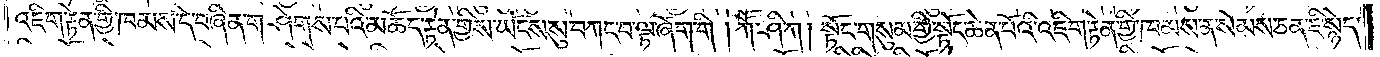འཇིག་རྟེན་གྱི་ཁམས་དེ་བཞིན་གཤེགས་པའི་མཆོད་རྟེན་གྱིས་ཡོངས་སུ་བཀང་བ་ལྟ་ཞོག་གི། ཀཽ་ཤི་ཀ། སྟོང་གསུམ་གྱི་སྟོང་ཆེན་པོའི་འཇིག་རྟེན་གྱི་ཁམས་ན་སེམས་ཅན་ཇི་སྙེད་
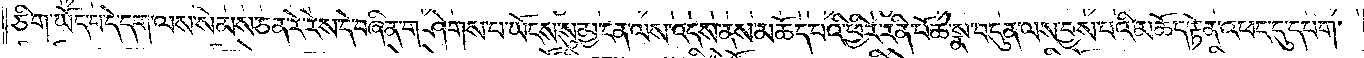ཅིག་ཡོད་པ་དེ་དག་ལས་སེམས་ཅན་རེ་རེས་དེ་བཞིན་གཤེགས་པ་ཡོངས་སུ་མྱ་ངན་ལས་འདས་ནས་མཆོད་པའི་ཕྱིར་རིན་པོ་ཆེ་སྣ་བདུན་ལས་བྱས་པའི་མཆོད་རྟེན་འཕང་དུ་དཔག་
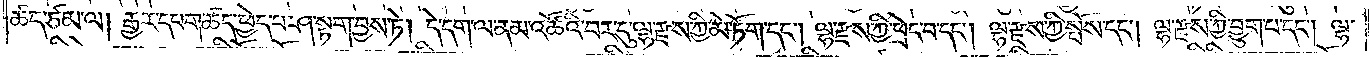ཚད་ཙམ་ལ། རྒྱར་དཔག་ཚད་ཕྱེད་པ་ཤ་སྟག་བྱས་ཏེ། དེ་དག་ལ་ནམ་འཚོའི་བར་དུ་ལྷ་རྫས་ཀྱི་མེ་ཏོག་དང༌། ལྷ་རྫས་ཀྱི་ཕྲེང་བ་དང༌། ལྷ་རྫས་ཀྱི་སྤོས་དང༌། ལྷ་རྫས་ཀྱི་བྱུག་པ་དང༌། ལྷ་
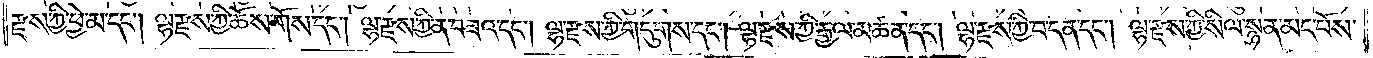རྫས་ཀྱི་ཕྱེ་མ་དང༌། ལྷ་རྫས་ཀྱི་ཆོས་གོས་དང༌། ལྷ་རྫས་ཀྱི་ན་བཟའ་དང༌། ལྷ་རྫས་ཀྱི་གདུགས་དང༌། ལྷ་རྫས་ཀྱི་རྒྱལ་མཚན་དང༌། ལྷ་རྫས་ཀྱི་བ་དན་དང༌། ལྷ་རྫས་ཀྱི་སིལ་སྙན་མང་པོས་
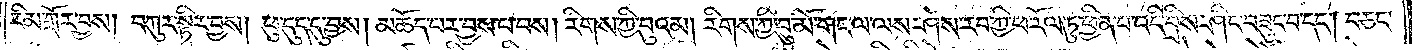རིམ་གྲོར་བྱས། བཀུར་སྟིར་བྱས། ཕུ་དུད་དུ་བྱས། མཆོད་པར་བྱས་པ་བས། རིགས་ཀྱི་བུའམ། རིགས་ཀྱི་བུ་མོ་གང་ལ་ལས་ཤེས་རབ་ཀྱི་ཕ་རོལ་ཏུ་ཕྱིན་པ་འདི་བྲིས་ཤིང་བཟུང་བ་དང༌། བཅང་
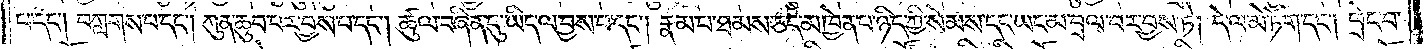བ་དང༌། བཀླགས་པ་དང༌། ཀུན་ཆུབ་པར་བྱས་པ་དང༌། ཚུལ་བཞིན་དུ་ཡིད་ལ་བྱས་པ་དང༌། རྣམ་པ་ཐམས་ཅད་མཁྱེན་པ་ཉིད་ཀྱི་སེམས་དང་ཡང་མ་བྲལ་བར་བྱས་ཏེ། དེ་ལ་མེ་ཏོག་དང༌། ཕྲེང་བ་
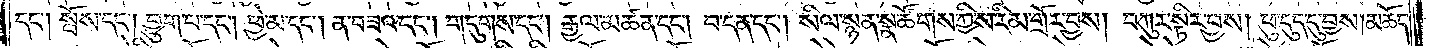དང༌། སྤོས་དང༌། བྱུག་པ་དང༌། ཕྱེ་མ་དང༌། ན་བཟའ་དང༌། གདུགས་དང༌། རྒྱལ་མཚན་དང༌། བ་དན་དང༌། སིལ་སྙན་སྣ་ཚོགས་ཀྱིས་རིམ་གྲོར་བྱས། བཀུར་སྟིར་བྱས། ཕུ་དུད་དུ་བྱས། མཆོད་
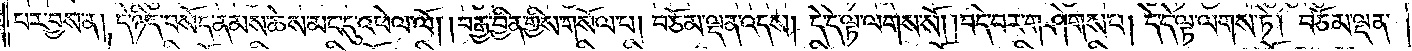པར་བྱས་ན། དེ་ཉིད་བསོད་ནམས་ཆེས་མང་དུ་འཕེལ་ལོ། །བརྒྱ་བྱིན་གྱིས་གསོལ་པ། བཅོམ་ལྡན་འདས། དེ་དེ་ལྟ་ལགས་སོ། །བདེ་བར་གཤེགས་པ། དེ་དེ་ལྟ་ལགས་ཏེ། བཅོམ་ལྡན་
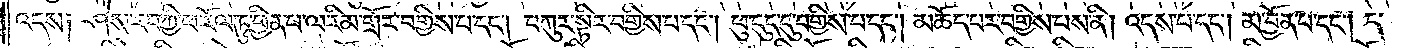འདས། ཤེས་རབ་ཀྱི་ཕ་རོལ་ཏུ་ཕྱིན་པ་ལ་རིམ་གྲོར་བགྱིས་པ་དང༌། བཀུར་སྟིར་བགྱིས་པ་དང༌། ཕུ་དུད་དུ་བགྱིས་པ་དང༌། མཆོད་པར་བགྱིས་པས་ནི། འདས་པ་དང༌། མ་བྱོན་པ་དང༌། ད་
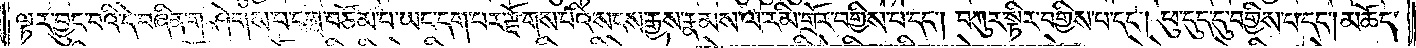ལྟར་བྱུང་བའི་དེ་བཞིན་གཤེགས་པ་དགྲ་བཅོམ་པ་ཡང་དག་པར་རྫོགས་པའི་སངས་རྒྱས་རྣམས་ལ་རིམ་གྲོར་བགྱིས་པ་དང༌། བཀུར་སྟིར་བགྱིས་པ་དང༌། ཕུ་དུད་དུ་བགྱིས་པ་དང༌། མཆོད་
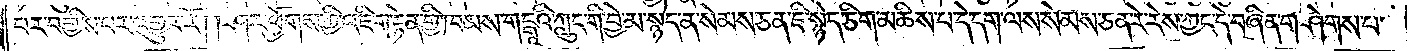པར་བགྱིས་པར་འགྱུར་རོ། །ཤར་ཕྱོགས་ཀྱི་འཇིག་རྟེན་གྱི་ཁམས་གངྒཱའི་ཀླུང་གི་བྱེ་མ་སྙེད་ན་སེམས་ཅན་ཇི་སྙེད་ཅིག་མཆིས་པ་དེ་དག་ལས་སེམས་ཅན་རེ་རེས་ཀྱང་དེ་བཞིན་གཤེགས་པ་
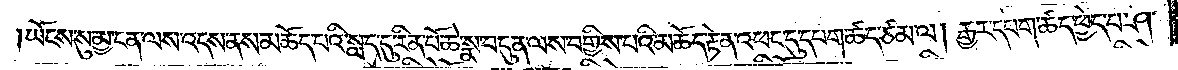ཡོངས་སུ་མྱ་ངན་ལས་འདས་ནས་མཆོད་པའི་སླད་དུ་རིན་པོ་ཆེ་སྣ་བདུན་ལས་བགྱིས་པའི་མཆོད་རྟེན་འཕང་དུ་དཔག་ཚད་ཙམ་ལ། རྒྱར་དཔག་ཚད་ཕྱེད་པ་ཤ་
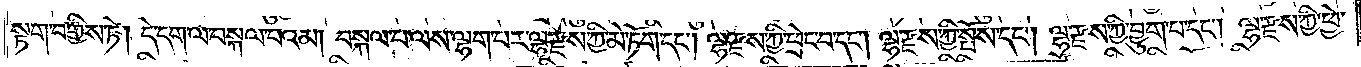སྟག་བགྱིས་ཏེ། དེ་དག་ལ་བསྐལ་པའམ། བསྐལ་པའི་ལྷག་མར་ལྷ་རྫས་ཀྱི་མེ་ཏོག་དང༌། ལྷ་རྫས་ཀྱི་ཕྲེང་བ་དང༌། ལྷ་རྫས་ཀྱི་སྤོས་དང༌། ལྷ་རྫས་ཀྱི་བྱུག་པ་དང༌། ལྷ་རྫས་ཀྱི་ཕྱེ་
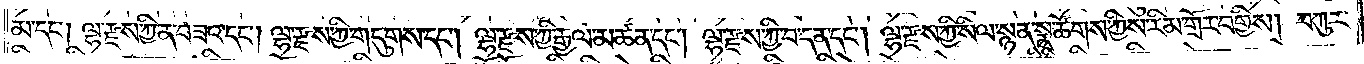མ་དང༌། ལྷ་རྫས་ཀྱི་ན་བཟའ་དང༌། ལྷ་རྫས་ཀྱི་གདུགས་དང༌། ལྷ་རྫས་ཀྱི་རྒྱལ་མཚན་དང༌། ལྷ་རྫས་ཀྱི་བ་དན་དང༌། ལྷ་རྫས་ཀྱི་སིལ་སྙན་སྣ་ཚོགས་ཀྱིས་རིམ་གྲོར་བགྱིས། བཀུར་
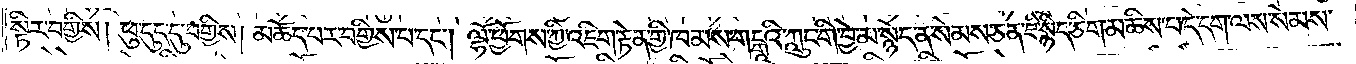སྟིར་བགྱིས། ཕུ་དུད་དུ་བགྱིས། མཆོད་པར་བགྱིས་པ་དང༌། ལྷོ་ཕྱོགས་ཀྱི་འཇིག་རྟེན་གྱི་ཁམས་གངྒཱའི་ཀླུང་གི་བྱེ་མ་སྙེད་ན་སེམས་ཅན་ཇི་སྙེད་ཅིག་མཆིས་པ་དེ་དག་ལས་སེམས་
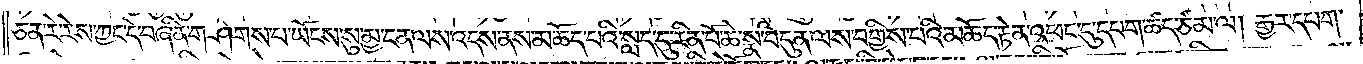ཅན་རེ་རེས་ཀྱང་དེ་བཞིན་གཤེགས་པ་ཡོངས་སུ་མྱ་ངན་ལས་འདས་ནས་མཆོད་པའི་སླད་དུ་རིན་པོ་ཆེ་སྣ་བདུན་ལས་བགྱིས་པའི་མཆོད་རྟེན་འཕང་དུ་དཔག་ཚད་ཙམ་ལ། རྒྱར་དཔག་
